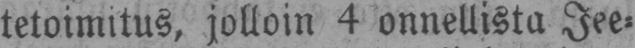tetoimitus, jolloin 4 onnellista Jee-
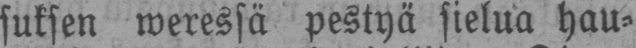suksen weressä pestyä sielua hau-
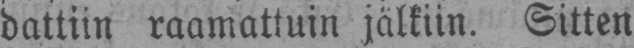dattiin raamattuin jälkiin. Sitten
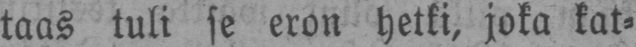taas tuli se eron hetki, joka kat-
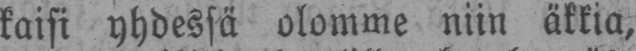kaisi yhdessä olomme niin äkkia,
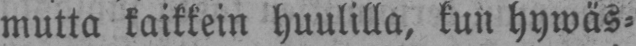mutta kaikkein huulilla, kun hywäs-
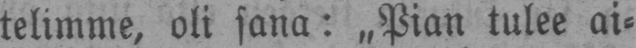telimme, oli sana: „Pian tulee ai-
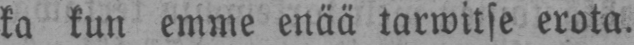ka kun emme enää tarwitse erota.
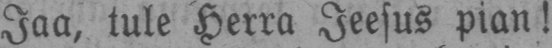Jaa, tule Herra Jeesus pian!
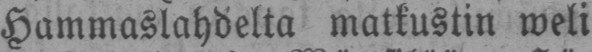Hammaslahdelta matkustin weli
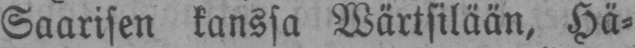Saarisen kanssa Wärtsilään, Hä-
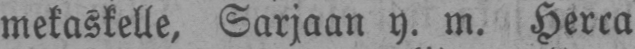mekaskelle. Sarjaan y. m. Herra
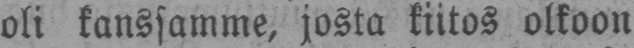oli kanssamme, josta kiitos olkoon
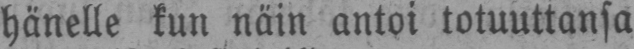hänelle kun näin antoi totuuttansa
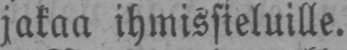jakaa ihmissieluille.
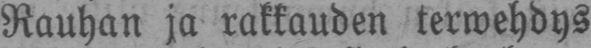Rauhan ja rakkauden terwehdys
